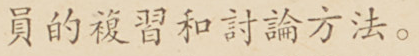員的複習和討論方法。
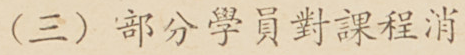（三）部分學員對課程消
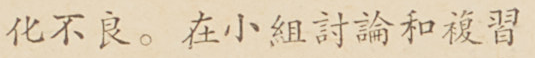化不良。在小組討論和複習
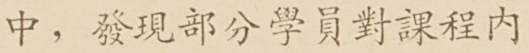中，發現部分學員對課程內
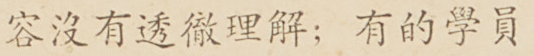容沒有透徹理解；有的學員
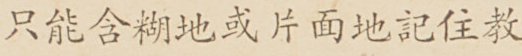只能含糊地或片面地記住教
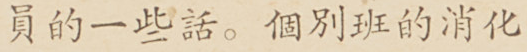員的一些話。個別班的消化
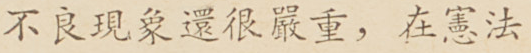不良現象還很嚴重，在憲法
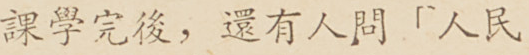課學完後，還有人問「人民
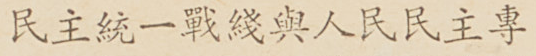民主統一戰綫與人民民主專
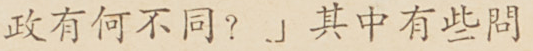政有何不同？」其中有些問
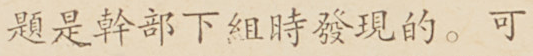題是幹部下組時發現的。可
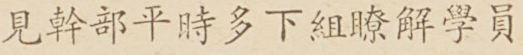見幹部平時多下組瞭解學員
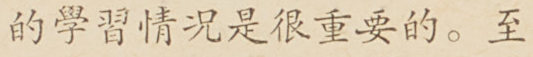的學習情況是很重要的。至
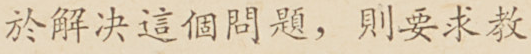於解決這個問題，則要求教
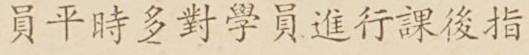員平時多對學員進行課後指
